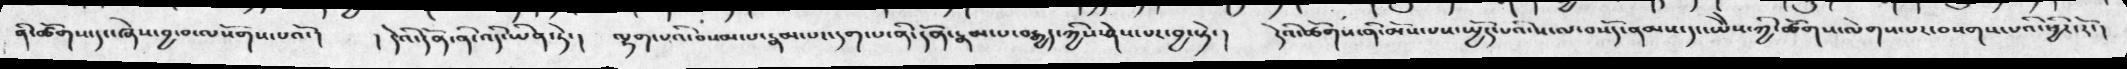ནི་ཚོགས་དང་ཞེས་བྱ་བ་ལསོགས་པའོ་།  ། དེའི་དོན་ནི་འདི་ཡིན་ཏེ་།  ལྷག་པའི་བསམ་པ་རྣམ་པར་དག་པ་ནི་དོན་རྣམ་པ་བརྒྱད་ཀྱིས་ཤེས་པར་བྱ་སྟེ་།   དེའི་ཚོགས་ནི་མོས་པས་སྤྱོད་པའི་ས་ལ་བསོད་ནམས་དང་ཡེེས་ཀྱི་ཚོགས་ལེགས་པར་བསགས་པའི་ཕྱིར་རོ་།
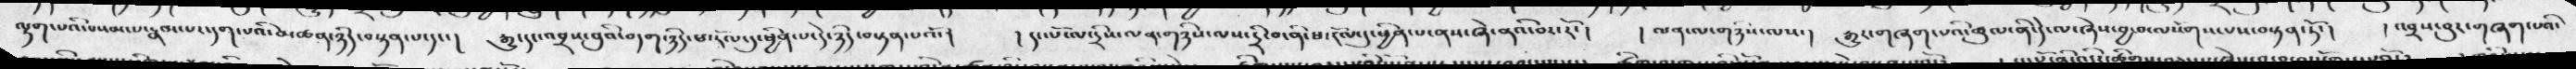ལྷག་པའི་བསམ་པ་རྣམ་པར་དག་པའི་མཚན་ཉིད་བསྟན་པ་དང་།  རྒྱུ་དང་འབྲས་བུའི་བདག་ཉིད་ཕ་རོལ་དུ་ཕྱིན་པ་དེ་ཉིད་བསྟན་པའོ་།  ། དང་པོ་ལ་དྲིས་ལན་གཉིས་ལས་དྲི་བ་ནི་ཕ་རོལ་དུ་ཕྱིན་པ་ནས་ཞེ་ནའི་བར་རོ་།  ། ལན་ལ་གཉིས་ལས་།  རྒྱུར་གཞག་པའི་ཚུལ་ནི་དེ་ལ་ཞེས་བྱ་བ་ལསོགས་པས་བསྟན་ཏོ་།  ། འབྲད་བུར་གཞག་པའི་
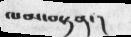ལམ་བསྟན་།
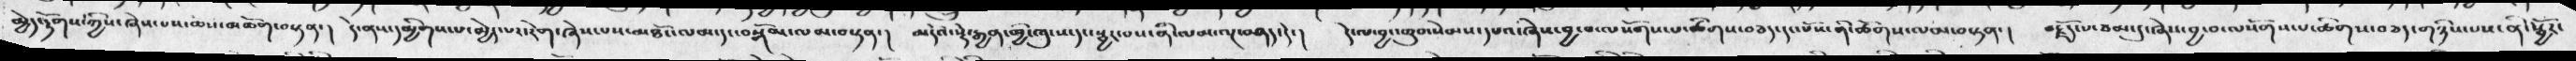མྱེད་རྟོགས་ཀྱིས་ཞེས་པས་ཆས་མཆོག་བསྟན་།  དེ་ནས་དམྱིགས་པ་མྱེད་པར་རེག་ཞེས་པས་མཐོང་ལམ་དང་བསྒོམ་ལམ་བསྟན་།  མདེའི་སྡེ་རྒྱན་གྱི་ཁུངས་དང་སྦྱར་བས་ནི་ལམ་ལྔ་བཤད་དེ་།   དེ་ལ་བྱང་ཆུབ་སེམས་དཔའ་ཞེས་བྱ་བ་ལསོགས་པ་ཚོགས་བཅད་དང་པོས་ནི་ཚོགས་ལམ་བསྟན་།  བརྗོད་པ་ཙམ་དུ་ཞེས་བྱ་བ་ལསོགས་པ་ཚིགས་བཅད་གཉིས་པས་ནི་སྦྱོར་
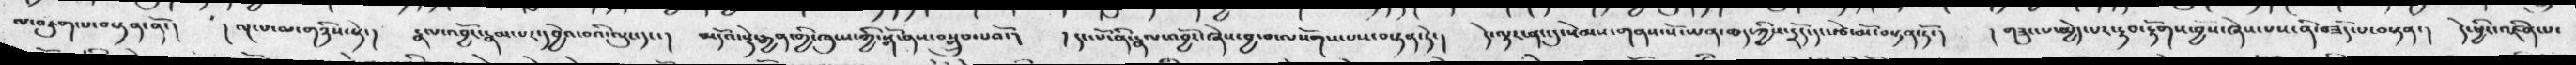ལ་འཇུག་པ་བསྟན་ནོ་།   ། ལྔ་པ་ལ་གཉིས་སྟེ་།   རྣལ་འབྱོར་རྣམ་པར་དབྱེའ་བའི་ལུང་དང་།   མདོའ་སྡེ་རྒྱན་གྱི་ཁུངས་ཀྱི་སྒོ་ནས་བསྒྲུབ་པའོ་།   ། དང་པོ་ནི་རྣལ་འབྱོར་ཞེས་བྱ་བ་ལསོགས་པས་བསྟན་ཏེ་།  དེ་ལྟར་ནང་དུ་སེམས་གནས་སོ་ཡན་ཆད་ཀྱིས་དྲོད་དང་རྩེ་མོ་བསྟན་ཏོ་།  ། གཟུང་པ་མྱེད་པར་རྟབ་རྟོགས་བྱས་ཞེས་པས་ནི་བཟོད་པ་བསྟན་།   དེ་ཕྱིར་འཛིན་པ་
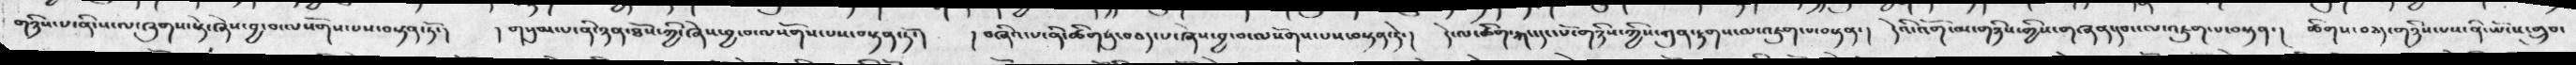གཉིས་པ་ནི་ས་ལ་ཞུགས་སྟེ་ཞེས་བྱ་བ་ལསོགས་པས་བསྟན་ཏོ་།  ། གསུམ་པ་ནི་ཉན་ཐོས་ཀྱི་ཞེས་བྱ་བ་ལསོགས་པས་བསྟན་ཏོ་།   ། བཞིའ་པ་ནི་ཚིགསུ་བཅད་པ་ཞེས་བྱ་བ་ལསོགས་པས་བསྟན་ཏེ་།   དེ་ལ་ཚིག་རྐང་དང་པོ་གཉིས་ཀྱིས་ཀུན་རྟགས་ལ་འཇུག་པ་བསྟན་།   དེའི་འོག་མ་གཉིས་ཀྱིས་གཞན་དབང་ལ་འཇུག་པ་བསྟན་།   ཚིགས་བཅད་གཉིས་པས་ནི་ཡོངས་གྲུབ་
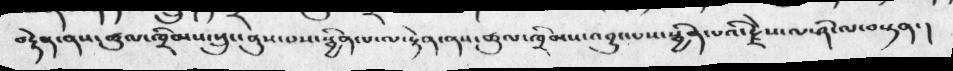བརྟེན་ནས་ཚུལ་ཁྲིམས་སྲུང་ནུས་པས་སྦྱིན་པ་ལ་རྟེན་ནས་ཚུལ་ཁྲིམས་འབྱུང་པས་སྦྱིན་པའི་རྗེས་ལ་ཤོ་ལ་བསྟན་།
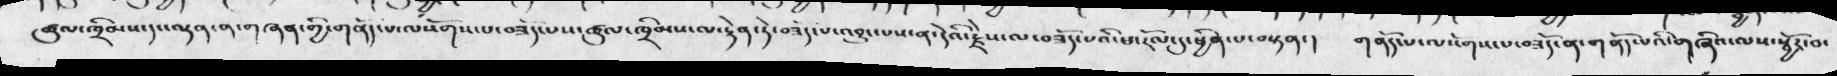ཚུལ་ཁྲིམས་དང་ལྡན་ན་གཞན་གྱི་གནོད་པ་ལསོགས་པ་བཟོད་པས་ཚུལ་ཁྲིམས་ལ་རྟེན་ཏེ་བཟོད་པ་འབྱུང་པས་ན་དེའི་རྗེས་ལ་བཟོད་པའི་ཕ་རོལ་དུ་ཕྱིན་པ་བསྟན་།  གནོད་པ་ལསོགས་པ་བཟོད་ན་གནོད་པའི་གཞིའ་ལས་སྦྱོར་བ་
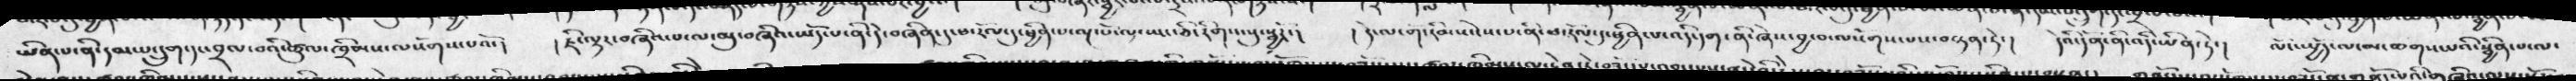ཡིན་པ་ནི་དམ་པ་དྲུག་དང་བྲལ་བའི་ཚུལ་ཁྲིམས་ལསོགས་པའོ་།  ། ཇི་ལྟར་བཞིའ་པ་ལ་མུ་བཞིའ་ཡོད་པ་ནི་དེ་བཞིན་དུ་ཕ་རོལ་དུ་ཕྱིན་པ་ལྔ་པོ་ལ་ཡང་ཅི་རིགས་སུ་སྦྱོར་།  ། དེ་ལ་གོ་རིམས་ངེས་པ་ནི་ཕ་རོལ་དུ་ཕྱིན་པ་འདི་དག་ནི་ཞེས་བྱ་བ་ལསོགས་པས་བསྟན་ཏེ་།  དེའི་དོན་ནི་འདི་ཡིན་ཏེ་།   ལོངས་སྤྱོད་ལ་མ་ཆགས་པའི་སྦྱིན་པ་ལ་
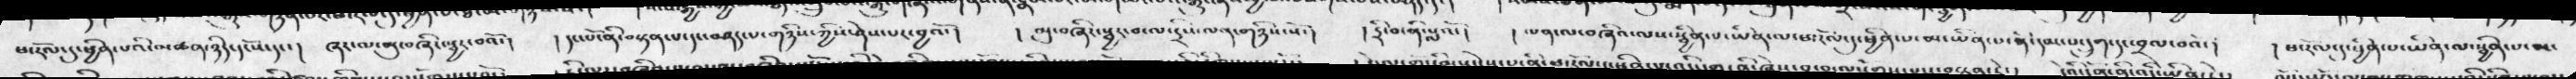ཕ་རོལ་དུ་ཕྱིན་པའི་མཚན་ཉིད་དངོས་དང་།  ཞར་ལ་མུ་བཞི་སྦྱར་བའོ་།  ། དང་པོ་ནི་བསྟན་པ་དང་བཤད་པ་གཉིས་ཀྱིས་ཤེས་པར་བྱའོ་།  ། མུ་བཞིར་སྦྱར་བ་ལ་དྲིས་ལན་གཉིས་སོ་།  ། དྲི་བ་ནི་སླའོ་།  ། ལན་ལ་བཞིའ་ལས་སྦྱིན་པ་ཡིན་ལ་ཕ་རོལ་དུ་ཕྱིན་པ་མ་ཡིན་པ་ནི་དམ་པ་དྲུག་དང་བྲལ་བའོ་།  ། ཕ་རོལ་དུ་ཕྱིན་པ་ཡིན་ལ་སྦྱིན་པ་མ་
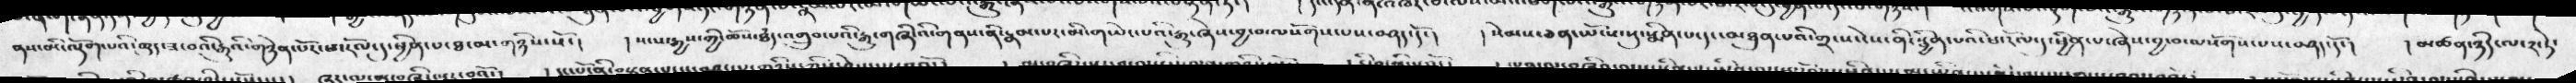ནས་མི་ལྡོག་པའི་ཆུད་ཟ་བའི་རྒྱུའི་གཉེན་པོར་ཕ་རོལ་དུ་ཕྱིན་པ་ཐ་མ་གཉིས་སོ་།  ། སངས་རྒྱས་ཀྱི་ཆོས་ཐཾད་འགྲུབ་པའི་རྒྱུ་གཞིའི་གནས་ནི་རྣམ་པར་མི་གཡེང་པའི་རྒྱུ་ཞེས་བྱ་བ་ལསོགས་པས་བཤད་དོ་།  ། སེམས་ཅན་ཡོངས་སུ་སྨིན་པ་དང་མཐུན་པའི་གྲ་ས་ངེས་ནི་སྦྱིན་པའི་ཕ་རོལ་དུ་ཕྱིན་པ་ཞེས་བྱ་བ་ལསོགས་པས་བཤད་དོ་།  ། མཚན་ཉིད་ལ་༢་ཏེ་
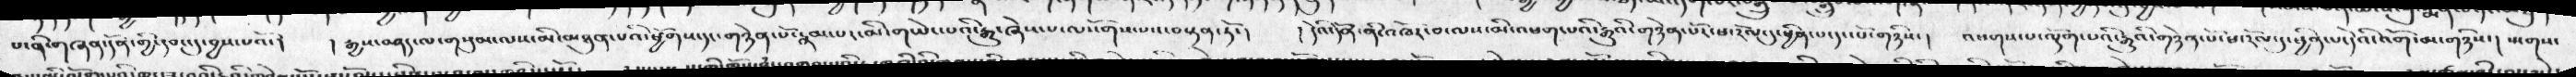པ་ནི་གཞན་དོན་གྱི་དབང་དུ་བྱས་པའོ་།  ། རྒྱས་བཤད་ལ་གསུམ་ལས་མི་མཐུན་པའི་ཕྱོགས་དང་གཉེན་པོ་རྣམ་པར་མི་གཡེང་པའི་རྒྱུ་ཞེས་པ་ལསོགས་པར་བསྟན་ཏོ་།  ། དེའི་དོན་ནི་འཁོར་བ་ལས་མི་འཕག་པའི་རྒྱུའི་གཉེན་པོར་ཕ་རོལ་དུ་ཕྱིན་པ་དང་པོ་གཉིས་།  འཕགས་པ་ལྡོག་པའི་རྒྱུའི་གཉེན་པོ་ཕ་རོལ་དུ་ཕྱིན་པ་དེའི་འོག་མ་གཉིས་།  སྤགས་
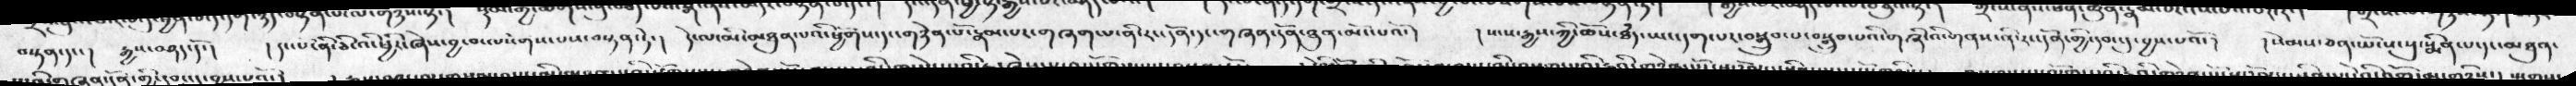བསྟན་དང་།  རྒྱས་བཤད་དོ་།  ། དང་པོ་ནི་ཅི་འི་ཕྱིར་ཞེས་བྱ་བ་ལསོགས་པས་བསྟན་ཏེ་།  དེ་ལ་མི་མཐུན་པའི་ཕྱོགས་དང་གཉེན་པ་རྣམ་པར་གཞག་པ་ནི་རང་དོན་དང་གཞན་དོན་ཐུན་མོང་པའོ་།  ། སངས་རྒྱས་ཀྱི་ཆོས་ཐཾད་ཡང་དག་པར་བསྒྲུབ་པ་བསྒྲུབ་པའི་གཞི་འི་གནས་ནི་རང་དོན་གྱི་དབང་དུ་བྱས་པའོ་།  ། སེམས་ཅན་ཡོངས་སུ་སྨིན་པ་དང་མཐུན་
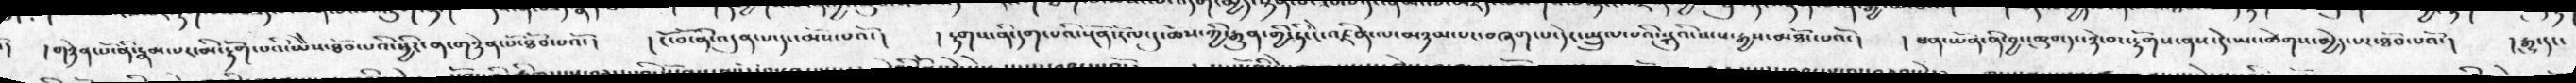།   ། གཉིན་པོ་ནི་རྣམ་པར་མི་རྟོག་པའི་ཡེེས་ཐོབ་པའི་ཕྱིར་ན་གཉེན་པོ་ཐོབ་པའོ་།  ། ངོ་བོ་ནི་འདུན་པ་དང་མོས་པའོ་།  ། རྟགས་ནི་དག་པའི་སྔོན་རོལ་དུ་ཆོས་ཀྱི་རྒྱུན་གྱི་ཏི་ངེ་འཛིན་ལ་མཉམ་པར་བཞག་པ་དང་སྤྲུལ་པའི་སྐུའི་སངས་རྒྱས་མཐོང་པའོ་།  ། ཕན་ཡོན་ནི་བྱང་ཆུབ་དང་ཉེ་བར་རྟོགས་ནས་དེ་ཡང་ཚེགས་མྱེད་པར་ཐོབ་པའོ་།  ། རྒྱུ་དང་
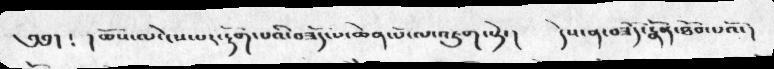༄༅།  ༴  ། ཆོས་ལ་ངེས་པར་རྟོག་པའི་བཟོད་པ་ཆེན་པོ་ལ་འཇུག་སྟེ་།  དེས་ན་བཟོད་རྣོན་ཐོབ་པའོ་།
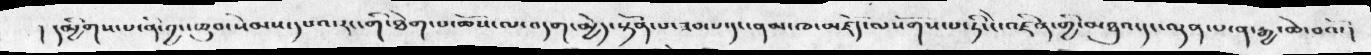། དམྱིགས་པ་ནི་བྱང་ཆུབ་སེམས་དཔའ་རང་གི་ཐེག་པ་ཆོས་ལ་བདག་མྱེད་སྟོན་པ་ཟབ་པ་དང་ནམ་ཁ་མཛོད་ལསོགས་པ་ཏི་ངེ་འཛིན་གྱི་མཐུའ་དང་ལྡན་པ་ན་རྒྱ་ཆེ་བའོ་།
